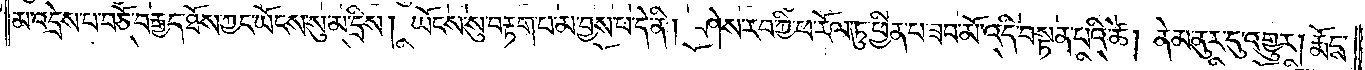མ་འདྲེས་པ་བཅོ་བརྒྱད་ཐོས་ཀྱང་ཡོངས་སུ་མ་དྲིས། ཡོངས་སུ་བརྟག་པ་མ་བྱས་པ་དེ་ནི། ཤེས་རབ་ཀྱི་ཕ་རོལ་ཏུ་ཕྱིན་པ་ཟབ་མོ་འདི་བསྟན་པའི་ཚེ། ནེམ་ནུར་དུ་འགྱུར། རྨོངས་
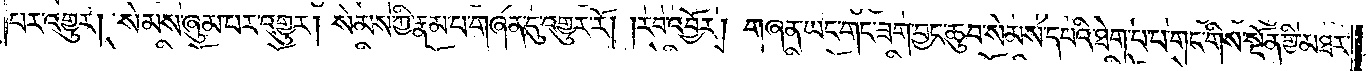པར་འགྱུར། སེམས་ཞུམ་པར་འགྱུར། སེམས་ཀྱི་རྣམ་པ་གཞན་དུ་འགྱུར་རོ། །རབ་འབྱོར། གཞན་ཡང་གང་ཟག་བྱང་ཆུབ་སེམས་དཔའི་ཐེག་པ་པ་གང་གིས་སྔོན་གྱི་མཐར་
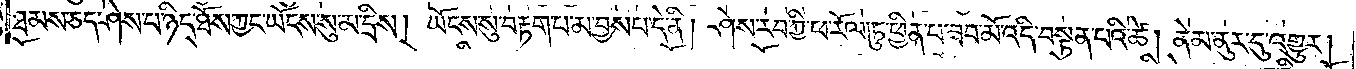ཐམས་ཅད་ཤེས་པ་ཉིད་ཐོས་ཀྱང་ཡོངས་སུ་མ་དྲིས། ཡོངས་སུ་བརྟག་པ་མ་བྱས་པ་དེ་ནི། ཤེས་རབ་ཀྱི་ཕ་རོལ་ཏུ་ཕྱིན་པ་ཟབ་མོ་འདི་བསྟན་པའི་ཚེ། ནེམ་ནུར་དུ་འགྱུར།
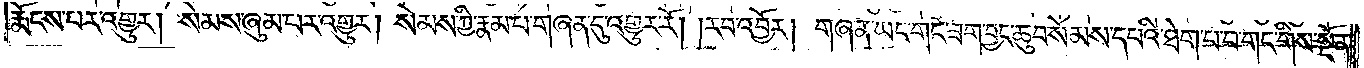རྨོངས་པར་འགྱུར། སེམས་ཞུམ་པར་འགྱུར། སེམས་ཀྱི་རྣམ་པ་གཞན་དུ་འགྱུར་རོ། །རབ་འབྱོར། གཞན་ཡང་གང་ཟག་བྱང་ཆུབ་སེམས་དཔའི་ཐེག་པ་པ་གང་གིས་སྔོན་
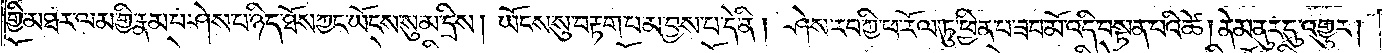གྱི་མཐར་ལམ་གྱི་རྣམ་པ་ཤེས་པ་ཉིད་ཐོས་ཀྱང་ཡོངས་སུ་མ་དྲིས། ཡོངས་སུ་བརྟག་པ་མ་བྱས་པ་དེ་ནི། ཤེས་རབ་ཀྱི་ཕ་རོལ་ཏུ་ཕྱིན་པ་ཟབ་མོ་འདི་བསྟན་པའི་ཚེ། ནེམ་ནུར་དུ་འགྱུར།
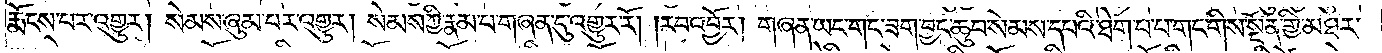རྨོངས་པར་འགྱུར། སེམས་ཞུམ་པར་འགྱུར། སེམས་ཀྱི་རྣམ་པ་གཞན་དུ་འགྱུར་རོ། །རབ་འབྱོར། གཞན་ཡང་གང་ཟག་བྱང་ཆུབ་སེམས་དཔའི་ཐེག་པ་པ་གང་གིས་སྔོན་གྱི་མཐར་
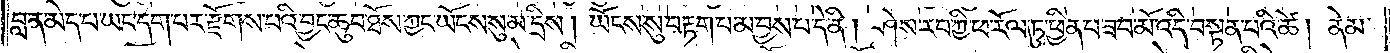བླ་ན་མེད་པ་ཡང་དག་པར་རྫོགས་པའི་བྱང་ཆུབ་ཐོས་ཀྱང་ཡོངས་སུ་མ་དྲིས། །ཡོངས་སུ་བརྟག་པ་མ་བྱས་པ་ད་ནི། ཤེས་རབ་ཀྱི་ཕ་རོལ་ཏུ་ཕྱིན་པ་ཟབ་མོ་འདི་བསྟན་པའི་ཚེ། ནེམ་
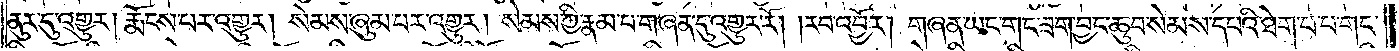ནུར་དུ་འགྱུར། རྨོངས་པར་འགྱུར། སེམས་ཞུམ་པར་འགྱུར། སེམས་ཀྱི་རྣམ་པ་གཞན་དུ་འགྱུར་རོ། །རབ་འབྱོར། གཞན་ཡང་གང་ཟག་བྱང་ཆུབ་སེམས་དཔའི་ཐེག་པ་པ་གང་
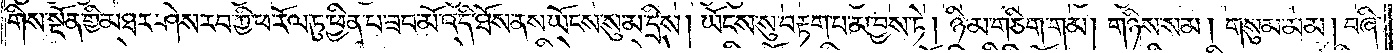གིས་སྔོན་གྱི་མཐར་ཤེས་རབ་ཀྱི་ཕ་རོལ་ཏུ་ཕྱིན་པ་ཟབ་མོ་འདི་ཐོས་ནས་ཡོངས་སུ་མ་དྲིས། ཡོངས་སུ་བརྟག་པ་མ་བྱས་ཏེ། ཉི་མ་གཅིག་གམ། གཉིས་སམ། གསུམ་མམ། བཞི་
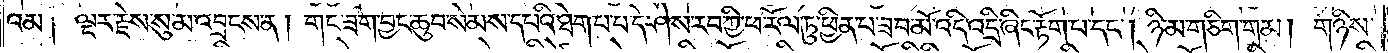འམ། ལྔར་རྗེས་སུ་མ་འབྲངས་ན། གང་ཟག་བྱང་ཆུབ་སེམས་དཔའི་ཐེག་པ་པ་དེ་ཤེས་རབ་ཀྱི་ཕ་རོལ་ཏུ་ཕྱིན་པ་ཟབ་མོ་འདི་འདྲ་ཞིང་རྟོག་པ་དང༌། ཉི་མ་གཅིག་གམ། གཉིས་
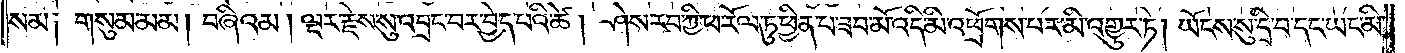སམ། གསུམ་མམ། བཞིའམ། ལྔར་རྗེས་སུ་འབྲང་བར་བྱེད་པའི་ཚེ། ཤེས་རབ་ཀྱི་ཕ་རོལ་ཏུ་ཕྱིན་པ་ཟབ་མོ་འདི་མི་འཕྲོགས་པར་མི་འགྱུར་ཏེ། ཡོངས་སུ་དྲི་བ་དང་ཡང་མི་
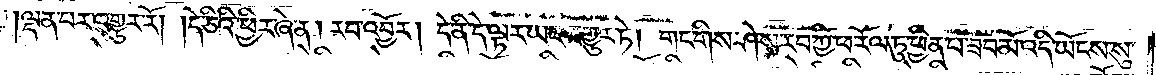ལྡན་པར་འགྱུར་རོ། །དེ་ཅིའི་ཕྱིར་ཞེ་ན། རབ་འབྱོར། དེ་ནི་དེ་ལྟར་ཡང་འགྱུར་ཏེ། གང་གིས་ཤེས་རབ་ཀྱི་ཕ་རོལ་ཏུ་ཕྱིན་པ་ཟབ་མོ་འདི་ཡོངས་སུ་
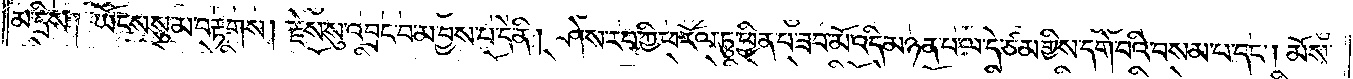མ་དྲིས། ཡོངས་སུ་མ་བརྟགས། རྗེས་སུ་འབྲང་བ་མ་བྱས་པ་དེ་ནི། ཤེས་རབ་ཀྱི་ཕ་རོལ་ཏུ་ཕྱིན་པ་ཟབ་མོ་འདི་མཉན་པ་ལ་དེ་ཙམ་གྱིས་དགེ་བའི་བསམ་པ་དང༌། མོས་
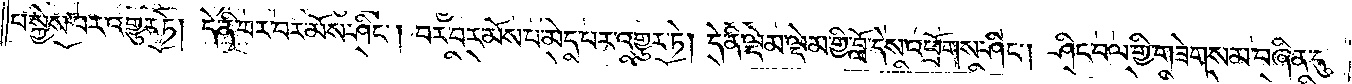པ་སྐྱེ་བར་འགྱུར་ཏེ། དེ་ནི་བར་བར་མོས་ཤིང༌། བར་བར་མོས་པ་མེད་པར་འགྱུར་ཏེ། དེ་ནི་ལྡམ་ལྡེམ་གྱི་བློ་དེས་འཕྲོགས་ཤིང༌། ཤིང་བལ་གྱི་གཟེགས་མ་བཞིན་དུ་
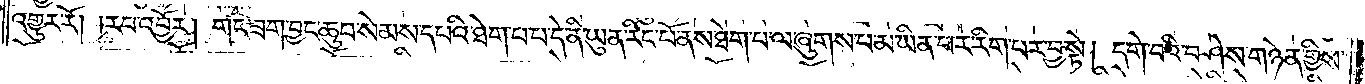འགྱུར་རོ། །རབ་འབྱོར། གང་ཟག་བྱང་ཆུབ་སེམས་དཔའི་ཐེག་པ་པ་དེ་ནི་ཡུན་རིང་པོ་ནས་ཐེག་པ་ལ་ཞུགས་པ་མ་ཡིན་པར་རིག་པར་བྱ་སྟེ། དགེ་བའི་བཤེས་གཉེན་གྱིས་
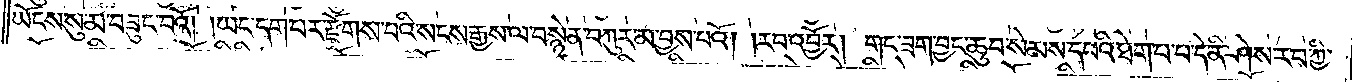ཡོངས་སུ་མ་བཟུང་བའོ། །ཡང་དག་པར་རྫོགས་པའི་སངས་རྒྱས་ལ་བསྙེན་བཀུར་མ་བྱས་པའོ། །རབ་འབྱོར། གང་ཟག་བྱང་ཆུབ་སེམས་དཔའི་ཐེག་པ་པ་དེ་ནི་ཤེས་རབ་ཀྱི་
